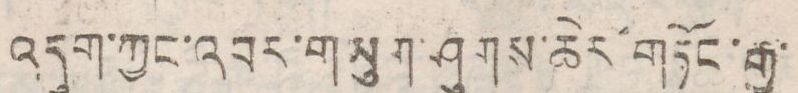འདུག་ཀྱང་འབར་གཡུག་ཤུགས་ཆེར་གཏོང་རྒྱུ་
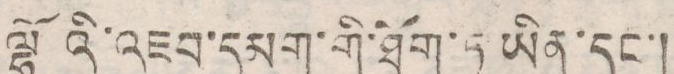ལྷོའི་འཇབ་དམག་གི་ཐོག་ཏུ་ཡིན་དང་།
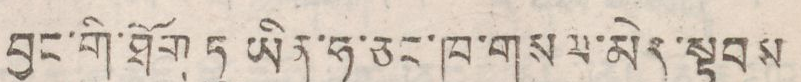བྱང་གི་ཐོག ཏུ ཡིན་ཧ་ཅང་ཁ་གསལ་མེད་སྟབས
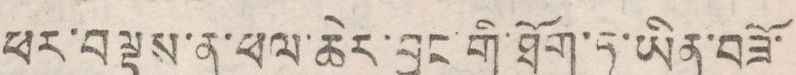ཕར་བལྟས་ན་ཕལ་ཆེར་བྱང་གི་ཐོག་ཏུ་ཡིན་བཟོ་
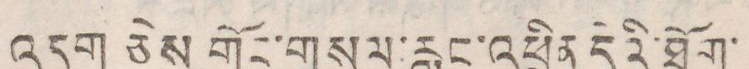འདུག ཅེས གོང་གསལ་རླུང་འཕྲིན དེའི་ཐོག་
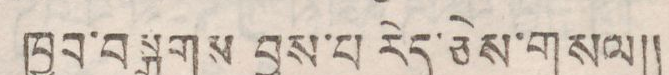ཁྱབ་བསྒྲགས བྱས་པ རེད་ཅེས་གསལ།།
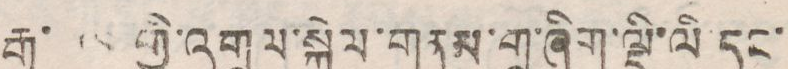རྒྱ་གར་གྱི་འགྲུལ་སྐྱེལ་གནམ་གྲུ་ཞིག་ལྡི་ལི དང་
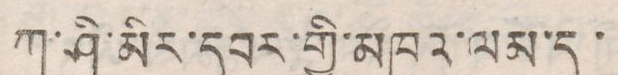ཀ་ཤི་མིར་དབར་གི་མཁའ་ལམ་དུ་
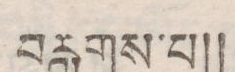བརླགས་པ།།
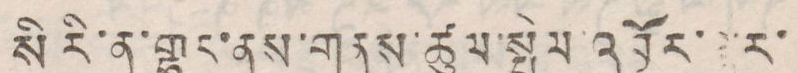སི རི་ན་གྷར་ནས་གནས་ཚུལ་སྤེལ་འབྱོར་ལྟར་
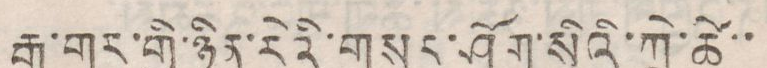རྒྱ་གར་གྱི་ཉིན་རེའི་གསར་ཤོག་སིའི་ཀྲེ་ཚེ་་
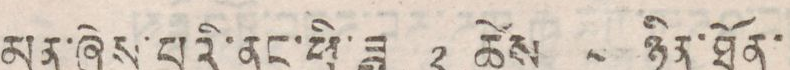མན་ཞེས་པའི་ནང་ཕྱི་ཟླ་ ༢ ཚེས་ ༨ ཉིན་ཐོན་
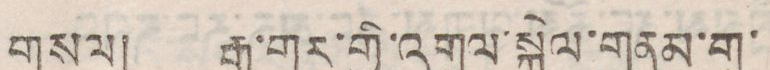གསལ། རྒྱ་གར་གྱི་འགྲུལ་སྐྱེལ་གནམ་གྲུ་
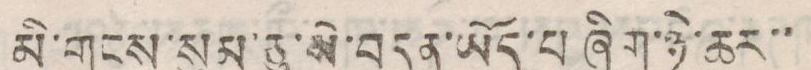མི་གྲངས་སུམ་ཅུ་སོ་བདུན་ཡོད་པ ཞིག་ཉེ་ཆར་་
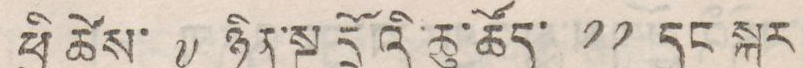ཕྱི ཚེས་ ༧ ཉིན་སྔ དྲོའི་ཚུ་ཚོད་ ༡༡ དང སྐར
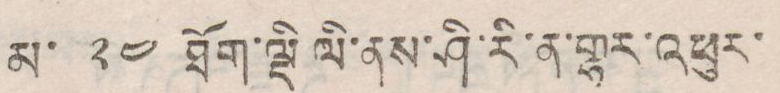མ་ ༢༤ ཐོག་ལྡི ལི་ནས་ཤི་རི་ན་གྷར་འཕུར་
